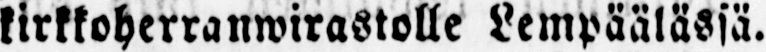kirkkoherranwirastolle Lempäälässä.
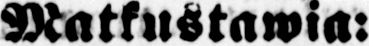Matkustawia:
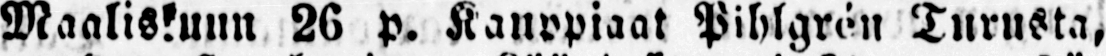Maaliskuun 26 p. Kauppiaat Pihlgrén Turusta,
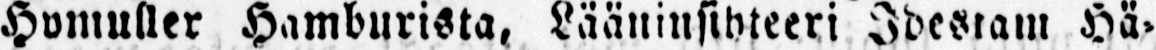Hvmuller Hamburista, Lääninsihteeri Idestam Hä-
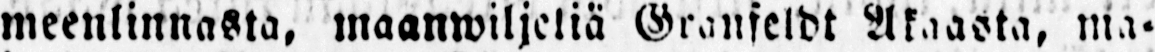meenlinnasta, maanwiljeliä Granseldt Akaasta, ma-
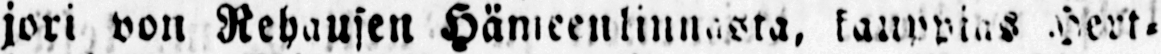jori von Rehausen Hämeenlinnasta. kauppias Hert-
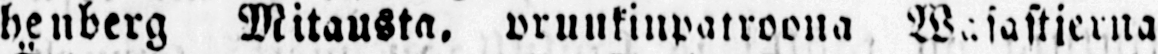henberg Mitausta. pruukinpatroona Wasastjerna
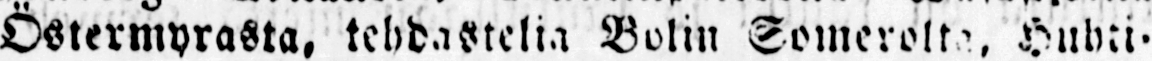Östermyrasta, tehdastelia Bolin Somerolta, Huh-
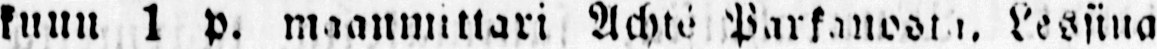kuun 1 p. maanminari Achté Parkanosta Lessina
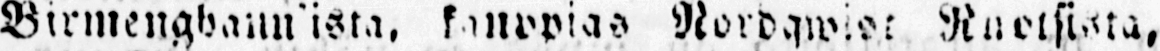Birmengha nnista. kanppias Nordqwist Ruotsista,
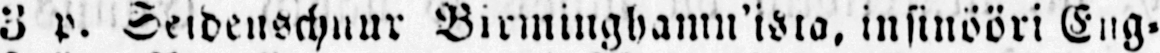3 p. Seidenschnur Birminghamn'ista. insinööri Eng-
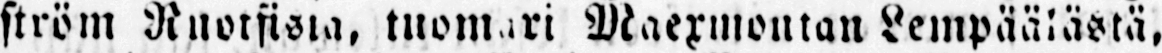ström Ruotsista, tuomari Maexmontan Lempäälästä.
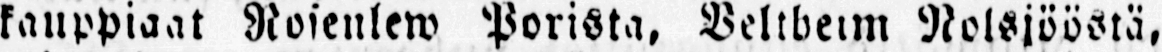kauppiaat Rosenlew Porista, Veltbeim Nolsjööstä,
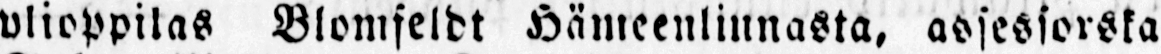ylioppilas Blomseldt Hämeenlinnasta, assessorska
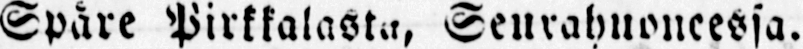Spåre Pirkkalasta, Seurahuvneessa.
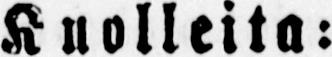Kuolleita:
